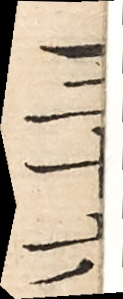三十六
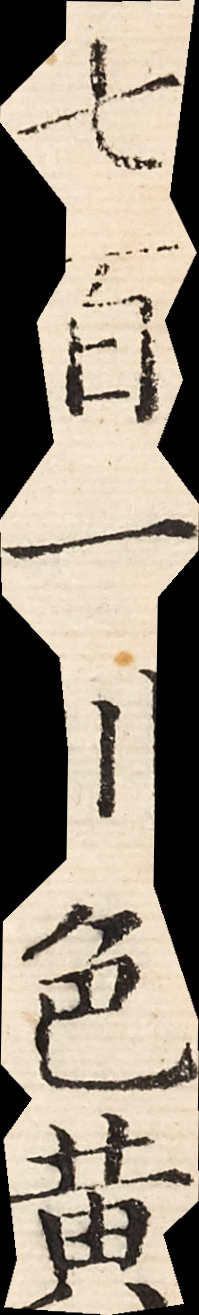七百一川色黃
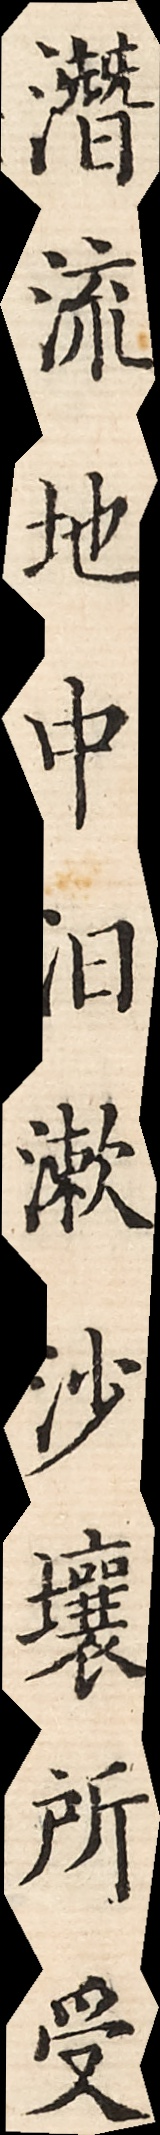潛流地中汨潄沙壤所受
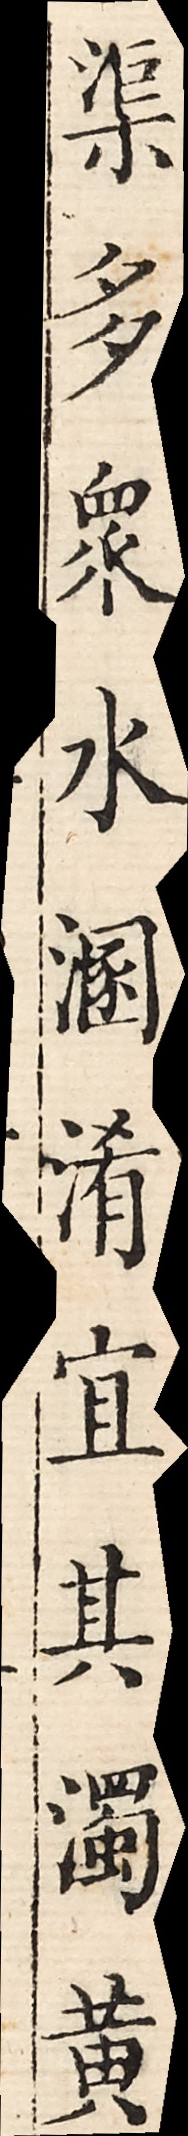渠多眾水溷淆宜其濁黃
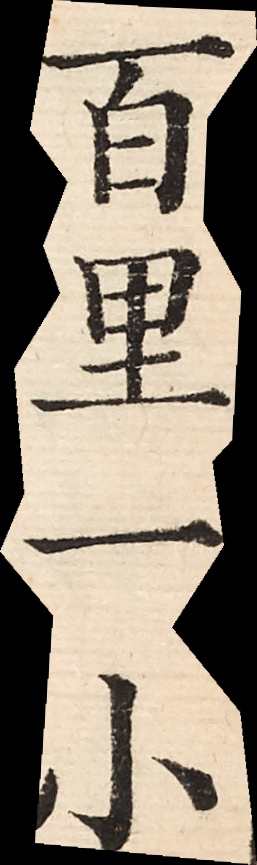百里一小
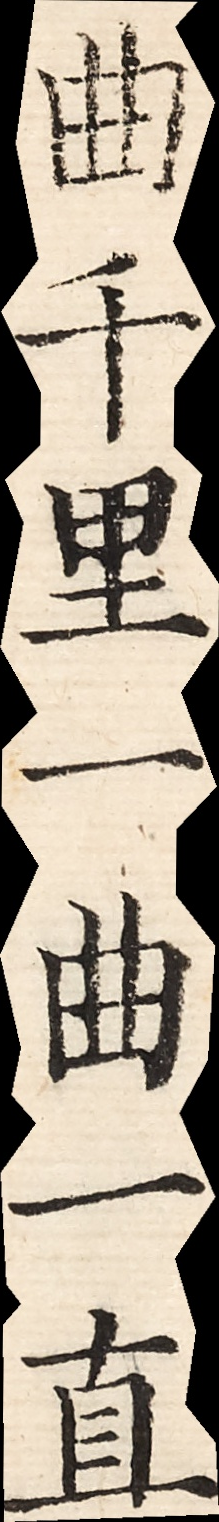曲千里一曲一直
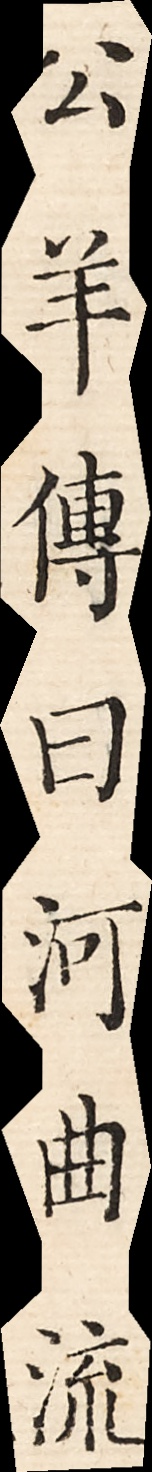公羊傳曰河曲流
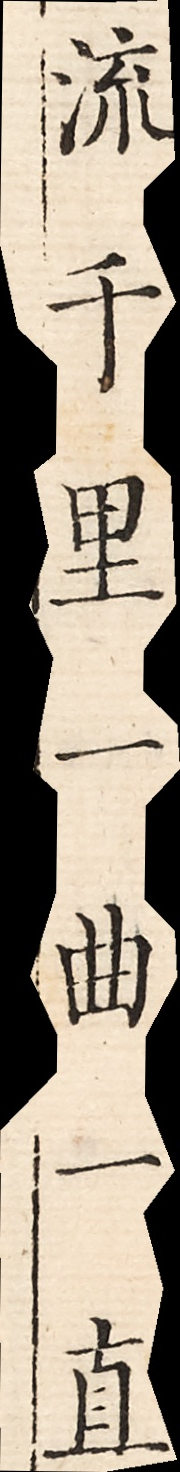河千里一曲一直
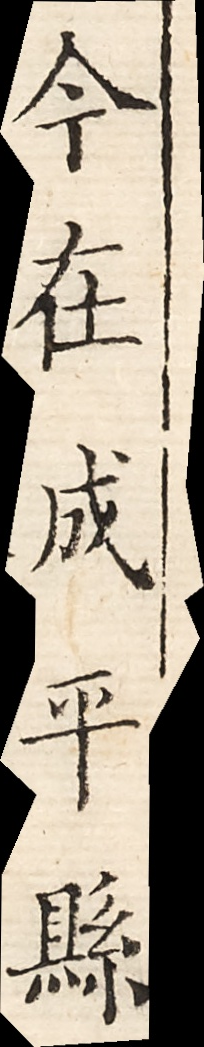今在成平縣
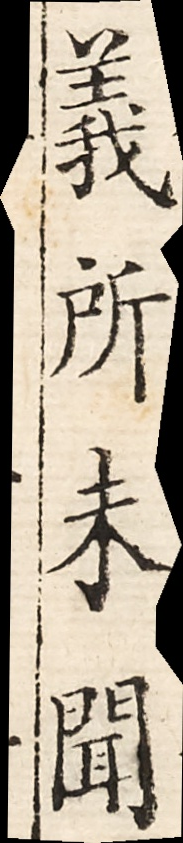義所未聞
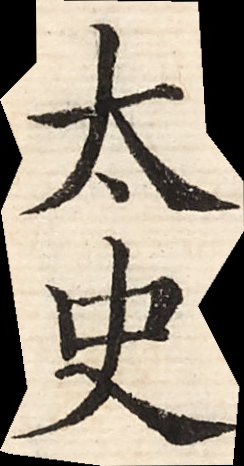太史
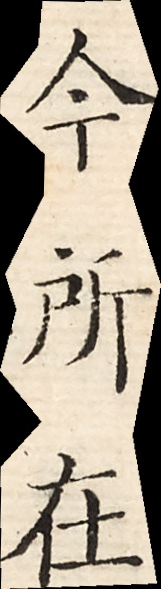今所在
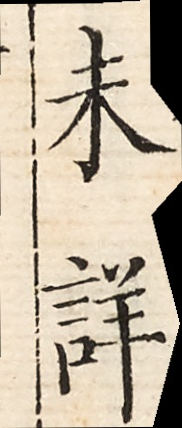未詳
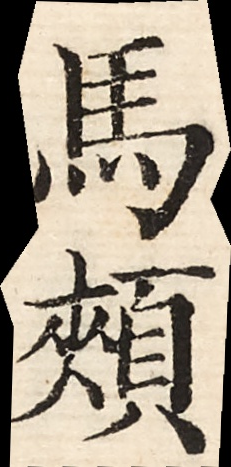馬頰
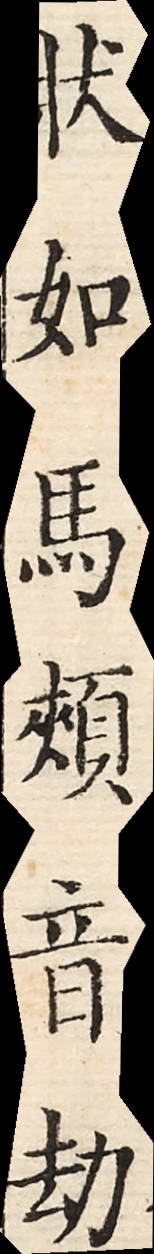狀如馬頰音劫
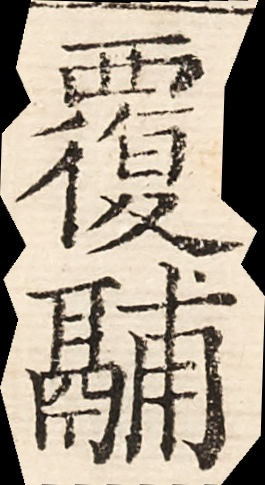覆鬴
